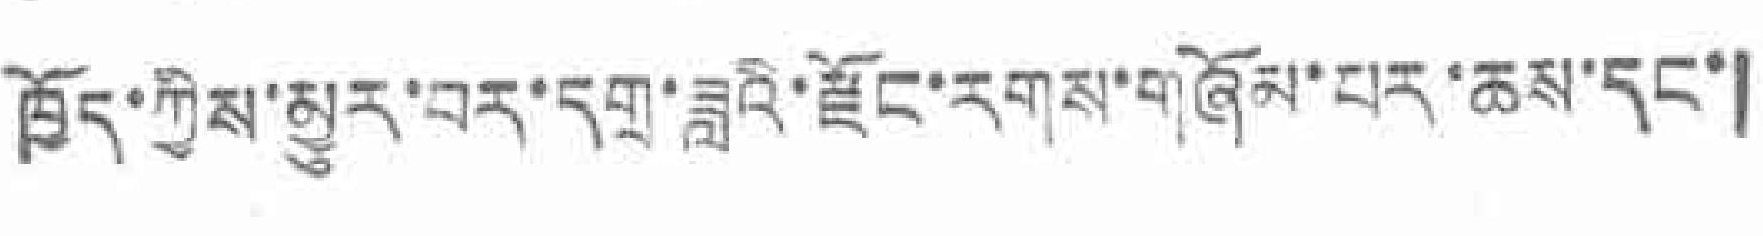ཁྱོད་ཀྱིས་མྱུར་བར་དགྲ་ཟླའི་རྫོང་རགས་གཞོམ་པར་ཆས་དང་།
